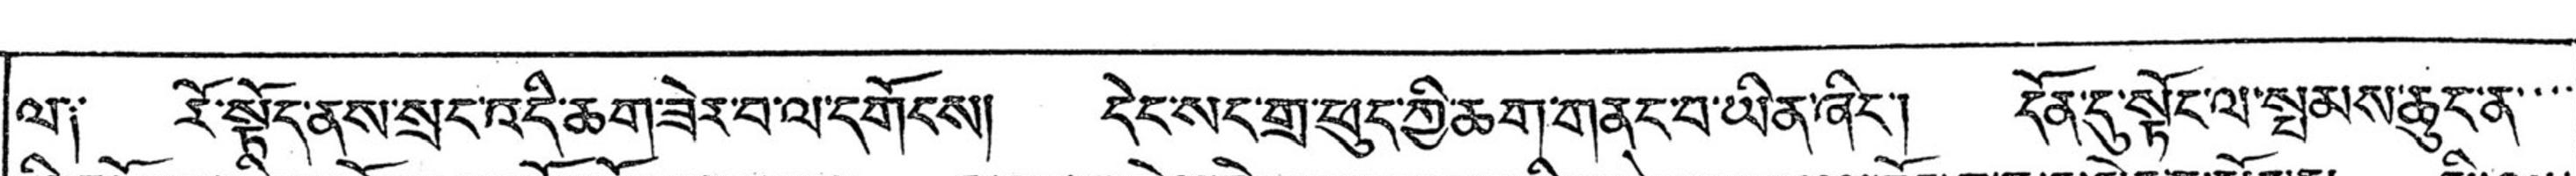ལ༑ རོ་སྟོད་ནས་སྲང་འདི་ཆག་ཟེར་བ་ལ་དགོངས། དེང་སང་གྲ་ཕུད་ཀྱི་ཆག་གནང་པ་ཡིན་ཞིང་། དོན་དུ་སྟོང་ལ་སྤམས་ཆུང་ན་་་་
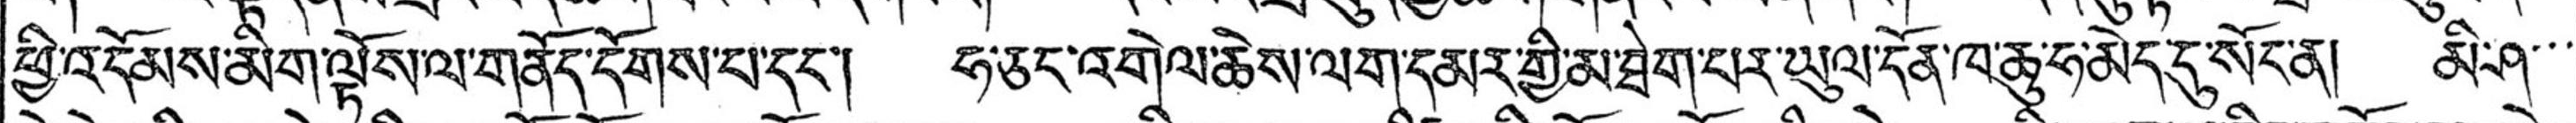ཕྱི་འདོམས་མིག་ལྟོས་ལ་གནོད་དོགས་པ་དང་། ཧ་ཅང་འགེལ་ཆེས་ལག་དམར་གྱི་མ་ཐེག་པར་ཡུལ་དོན་ཁ་ཆུ་ཧ་མེད་དུ་སོང་ན། མི་ཤི་་་
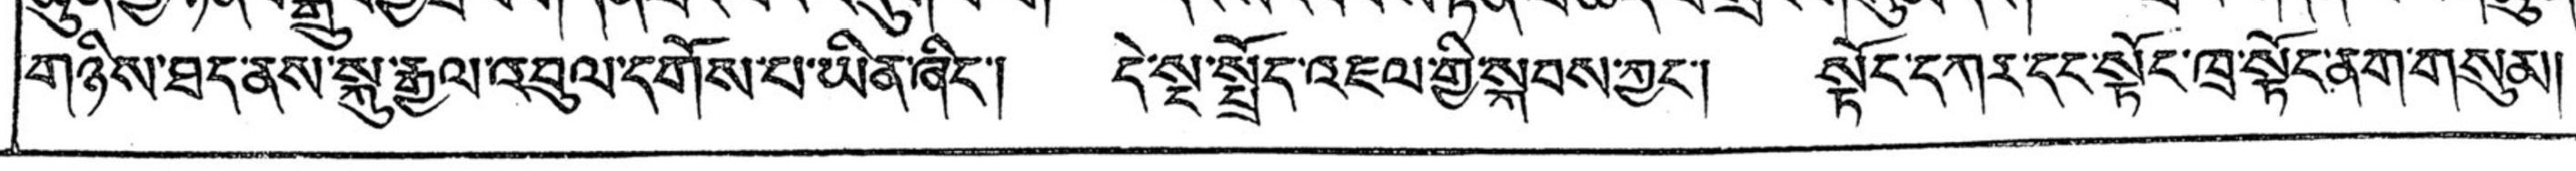གཉིས་ཐད་ནས་སྐུ་རྒྱལ་འབུལ་དགོས་པ་ཡིན་ཞིང་། དེ་སྔ་སྤྲོད་འཇལ་གྱི་སྐབས་ཀྱང་། སྟོང་དཀར་དང་སྟོང་ཁྲ་སྟོང་ནག་གསུམ།
